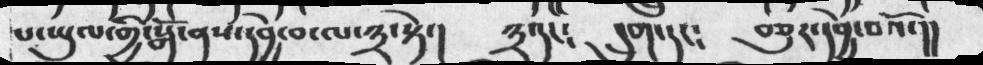པ་ཡུལ་གྱི་སྒོ་ནས་དབྱེ་བ་ལ་༣་སྟེ་།  ༣་དང༴   དགུ་དང༴  བཅུར་དབྱེ་བའོ་།།
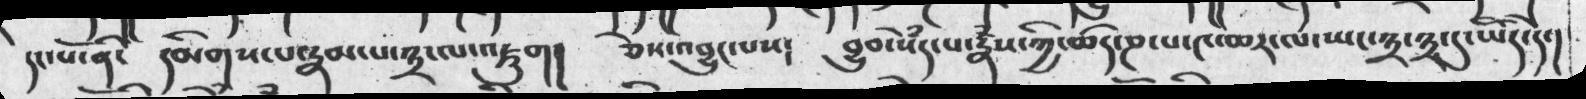དང་པཔོ་ནི་  དམིགས་པ་རྣམ་པ་༣་ལ་འཇུག།  ཅེས་འབྱུང་པས།  བྱུང་སེཾད་པ་རྣཾས་ཀྱི་ཚད་ཎ་པ་༤་ཆར་ལ་ཡང་༣་༣་དུ་ཡོད་དེ་།
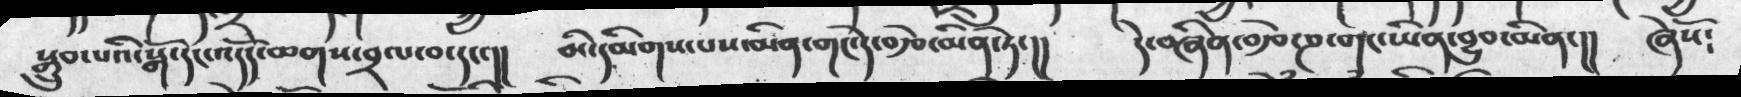སྒྲུབ་པའི་སྒོ་དང་འདོད་ཆགས་བྲལ་བ་དང་།།  མི་དམིགས་པས་མིན་གང་དེ་བརྩེ་མིན་ཏེ་།།   དེ་བཞིན་བརྩེ་ཎ་གང་ཡིན་བྱུང་མིན་།།  ཞེསོ༴
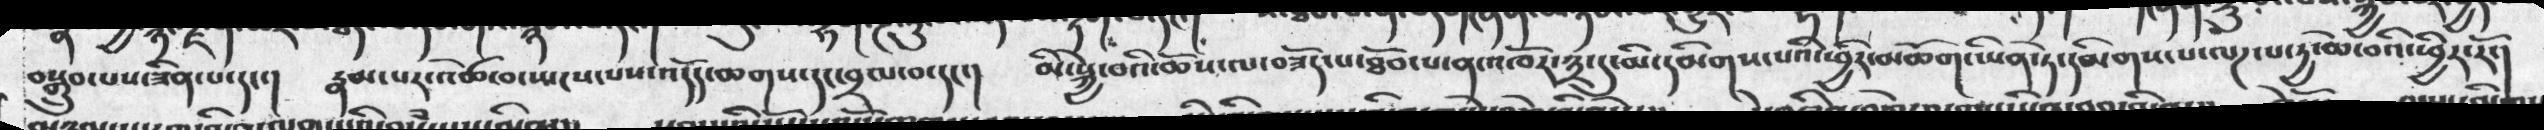བསྒྲུབ་པས་ཟིན་པ་དང་།   རྣམ་པར་འཚེ་བ་སྤངས་པས་འདོད་ཆགས་དང་བྲལ་བ་དང་།   མི་སྐྱེ་བའི་ཆོས་ལ་བཟོད་པ་ཐོབ་ན་འཁོར་༣་དུ་མི་དམིགས་པའི་ཕྱིར་མཆོག་ཡིན་ཏེ་དམིགས་པ་ལཌ་པ་དྱ་ཆེ་བའི་ཕྱིར་རོ་།
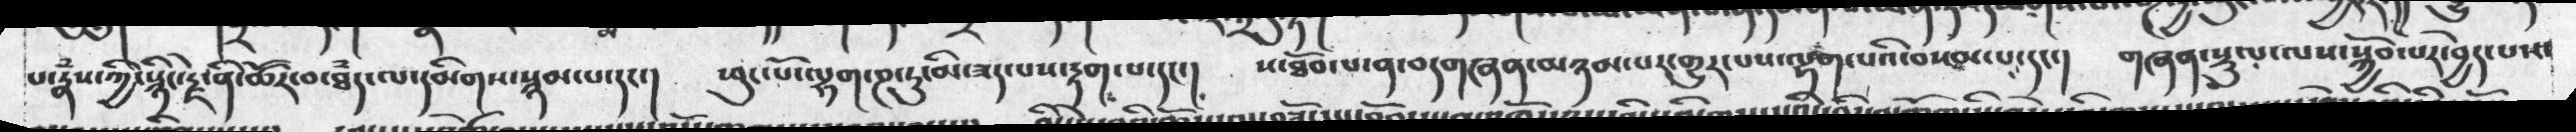པ་རྣཾས་ཀྱི་སྙིང་རྗེ་ནི་ཚོར་བ་ཐཾད་ལ་དམིགས་སྙམ་པ་དང་།  ཕུང་པོ་ལྷག་ཎ་ཏུ་མི་ཟད་པས་རྟག་པ་དང་།  ས་ཐོབ་པ་ན་བདག་གཞན་མཉམ་པར་གྱུར་པས་ལྷག་པའི་བསམ་པ་དང་།  གཞན་སྡུལ་ལས་སྐྱོབ་པར་བྱེད་པས་
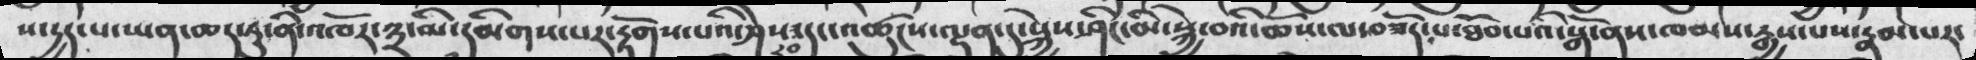ས་དྱད་པ་ཡན་ཆད་ཏུ་ནི་འཁོར་༣་མི་དམིགས་པར་རྟོགས་པའི་ཤེས་རབ་དང་མཚུངས་ལྡན་དུ་སྐྱེས་ཤིང་མི་སྐྱེ་བའི་ཆོས་ལ་བཟོད་པ་ཐོབ་པའི་སྒོ་ནས་ཁམས་རྒྱས་པས་རྣམ་པར་
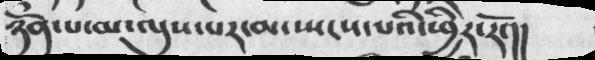ཉོན་པ་མ་ལུས་པར་མ་སྤངས་པའི་ཕྱིར་རོ་།།
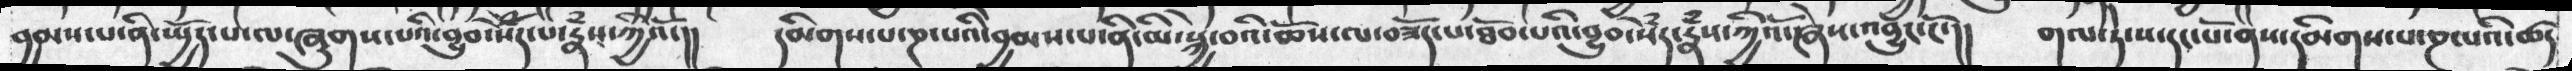བྱགས་པ་ནི་སྤྱོད་པ་ལ་ཞུགས་པའི་བྱུབ་སེཾད་པ་རྣཾས་ཀྱིའོ་།།  དམིགས་པ་ཎ་པའི་བྱམས་པ་ནི་མི་སྐྱེ་བའི་ཆོས་ལ་བཟོད་པ་ཐོབ་པའི་བྱུབ་སེཾར་རྣཾས་ཀྱིའོ་ཞེས་འབྱུང་ངོ་།།  གལ་ཏེ་ས་དང་པོ་ནས་དམིགས་པ་ཎ་པའི་ཚད
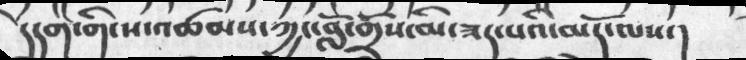དེདག་གི་ས་འཚམས་ཀྱང་བློ་གྲོས་མི་ཟད་པའི་མདོ་ལས་།
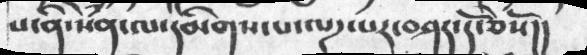ས་ནི་སེཾན་ལ་དམིགས་པ་ལཌ་པར་བཤད་དོ་ཅེསོ།།
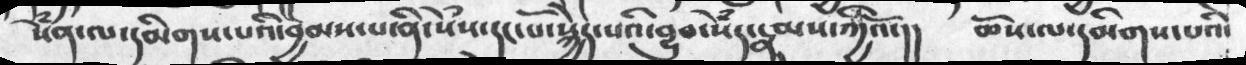སེཾན་ལ་དམིགས་པའི་བྱམས་པ་ནི་སེཾས་དང་པོ་སྐྱེད་པའི་བྱུབ་སེཾད་རྣམས་ཀྱིའོ་།།  ཆོས་ལ་དམིགས་པའི་
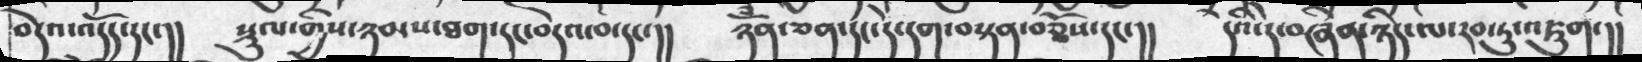བདེའ་འདོད་དང་།།   སྡུལ་གྱིས་ཉམས་ཐག་དང་བངེའ་བ་དང་།།  ཉོཾན་ཅན་དང་དེ་དག་བསྟན་བཅོས་དང་།།  དེའི་དེ་བཞིན་ཉིད་ལ་བར་དཏུ་འཇུག་།།
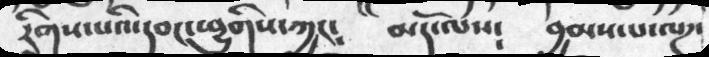རིགས་པའི་དབང་ཕྱུགིས་ཀྱང༴  མདོ་ལས༴  བྱམས་པ་ལཌ་
